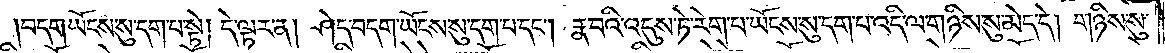བདག་ཡོངས་སུ་དག་པ་སྟེ། དེ་ལྟར་ན། ཤེད་བདག་ཡོངས་སུ་དག་པ་དང༌། རྣ་བའི་འདུས་ཏེ་རེག་པ་ཡོངས་སུ་དག་པ་འདི་ལ་གཉིས་སུ་མེད་དེ། གཉིས་སུ་
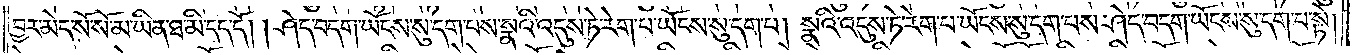བྱར་མེད་སོ་སོ་མ་ཡིན་ཐ་མི་དད་དོ། །ཤེད་བདག་ཡོངས་སུ་དག་པས་སྣའི་འདུས་ཏེ་རེག་པ་ཡོངས་སུ་དག་པ། སྣའི་འདུས་ཏེ་རེག་པ་ཡོངས་སུ་དག་པས་ཤེད་བདག་ཡོངས་སུ་དག་པ་སྟེ།
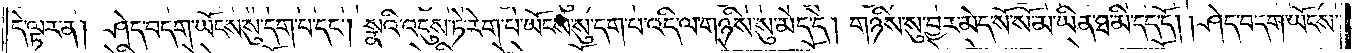དེ་ལྟར་ན། ཤེད་བདག་ཡོངས་སུ་དག་པ་དང༌། སྣའི་འདུས་ཏེ་རེག་པ་ཡོངས་སུ་དག་པ་འདི་ལ་གཉིས་སུ་མེད་དེ། གཉིས་སུ་བྱར་མེད་སོ་སོ་མ་ཡིན་ཐ་མི་དད་དོ། །ཤེད་བདག་ཡོངས་
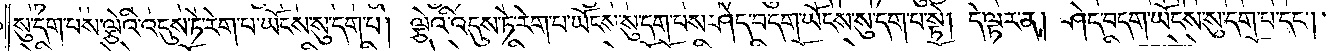སུ་དག་པས་ལྕེའི་འདུས་ཏེ་རེག་པ་ཡོངས་སུ་དག་པ། ལྕེའི་འདུས་ཏེ་རེག་པ་ཡོངས་སུ་དག་པས་ཤེད་བདག་ཡོངས་སུ་དག་པ་སྟེ། དེ་ལྟར་ན། ཤེད་བདག་ཡོངས་སུ་དག་པ་དང༌།
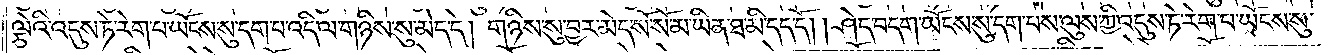ལྕེའི་འདུས་ཏེ་རེག་པ་ཡོངས་སུ་དག་པ་འདི་ལ་གཉིས་སུ་མེད་དེ། གཉིས་སུ་བྱར་མེད་སོ་སོ་མ་ཡིན་ཐ་མི་དད་དོ། །ཤེད་བདག་ཡོངས་སུ་དག་པས་ལུས་ཀྱི་འདུས་ཏེ་རེག་པ་ཡོངས་སུ་
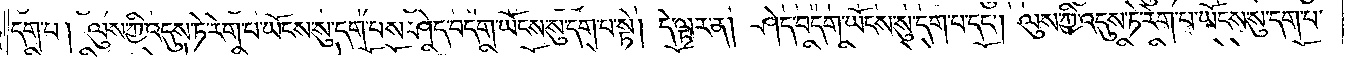དག་པ། ལུས་ཀྱི་འདུས་ཏེ་རེག་པ་ཡོངས་སུ་དག་པས་ཤེད་བདག་ཡོངས་སུ་དག་པ་སྟེ། དེ་ལྟར་ན། ཤེད་བདག་ཡོངས་སུ་དག་པ་དང༌། ལུས་ཀྱི་འདུས་ཏེ་རེག་པ་ཡོངས་སུ་དག་པ་
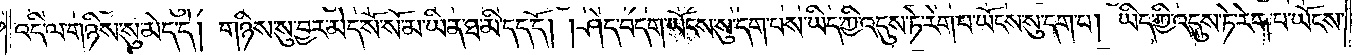འདི་ལ་གཉིས་སུ་མེད་དེ། གཉིས་སུ་བྱར་མེད་སོ་སོ་མ་ཡིན་ཐ་མི་དད་དོ། །ཤེད་བདག་ཡོངས་སུ་དག་པས་ཡིད་ཀྱི་འདུས་ཏེ་རེག་པ་ཡོངས་སུ་དག་པ། ཡིད་ཀྱི་འདུས་ཏེ་རེག་པ་ཡོངས་
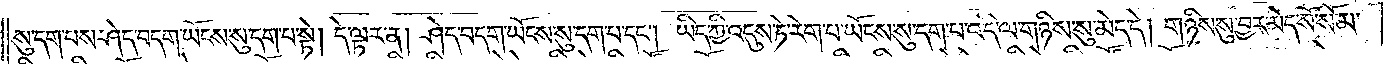སུ་དག་པས་ཤེད་བདག་ཡོངས་སུ་དག་པ་སྟེ། དེ་ལྟར་ན། ཤེད་བདག་ཡོངས་སུ་དག་པ་དང༌། ཡིད་ཀྱི་འདུས་ཏེ་རེག་པ་ཡོངས་སུ་དག་པ་འདི་ལ་གཉིས་སུ་མེད་དེ། གཉིས་སུ་བྱར་མེད་སོ་སོ་མ་
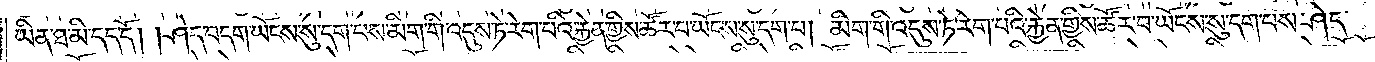ཡིན་ཐ་མི་དད་དོ། །ཤེད་བདག་ཡོངས་སུ་དག་པས་མིག་གི་འདུས་ཏེ་རེག་པའི་རྐྱེན་གྱིས་ཚོར་བ་ཡོངས་སུ་དག་པ། མིག་གི་འདུས་ཏེ་རེག་པའི་རྐྱེན་གྱིས་ཚོར་བ་ཡོངས་སུ་དག་པས་ཤེད་
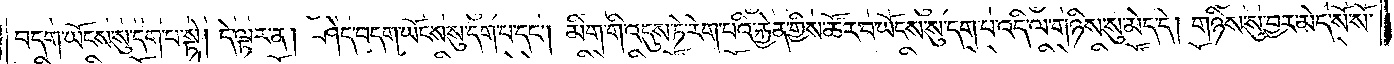བདག་ཡོངས་སུ་དག་པ་སྟེ། དེ་ལྟར་ན། ཤེད་བདག་ཡོངས་སུ་དག་པ་དང༌། མིག་གི་འདུས་ཏེ་རེག་པའི་རྐྱེན་གྱིས་ཚོར་བ་ཡོངས་སུ་དག་པ་འདི་ལ་གཉིས་སུ་མེད་དེ། གཉིས་སུ་བྱར་མེད་སོ་སོ་
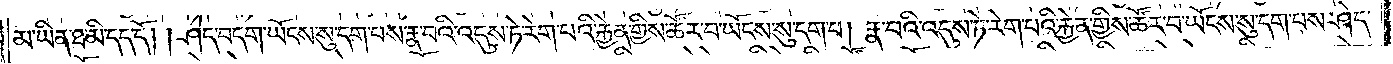མ་ཡིན་ཐ་མི་དད་དོ། །ཤེད་བདག་ཡོངས་སུ་དག་པས་རྣ་བའི་འདུས་ཏེ་རེག་པའི་རྐྱེན་གྱིས་ཚོར་བ་ཡོངས་སུ་དག་པ། རྣ་བའི་འདུས་ཏེ་རེག་པའི་རྐྱེན་གྱིས་ཚོར་བ་ཡོངས་སུ་དག་པས་ཤེད་
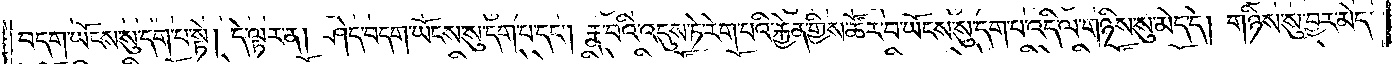བདག་ཡོངས་སུ་དག་པ་སྟེ། དེ་ལྟར་ན། ཤེད་བདག་ཡོངས་སུ་དག་པ་དང༌། རྣ་བའི་འདུས་ཏེ་རེག་པའི་རྐྱེན་གྱིས་ཚོར་བ་ཡོངས་སུ་དག་པ་འདི་ལ་གཉིས་སུ་མེད་དེ། གཉིས་སུ་བྱར་མེད་
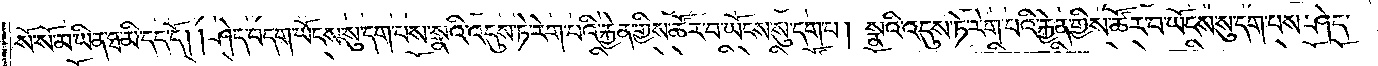སོ་སོ་མ་ཡིན་ཐ་མི་དད་དོ། །ཤེད་བདག་ཡོངས་སུ་དག་པས་སྣའི་འདུས་ཏེ་རེག་པའི་རྐྱེན་གྱིས་ཚོར་བ་ཡོངས་སུ་དག་པ། སྣའི་འདུས་ཏེ་རེག་པའི་རྐྱེན་གྱིས་ཚོར་བ་ཡོངས་སུ་དག་པས་ཤེད་
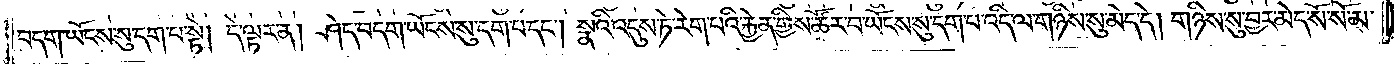བདག་ཡོངས་སུ་དག་པ་སྟེ། དེ་ལྟར་ན། ཤེད་བདག་ཡོངས་སུ་དག་པ་དང༌། སྣའི་འདུས་ཏེ་རེག་པའི་རྐྱེན་གྱིས་ཚོར་བ་ཡོངས་སུ་དག་པ་འདི་ལ་གཉིས་སུ་མེད་དེ། གཉིས་སུ་བྱར་མེད་སོ་སོ་མ་
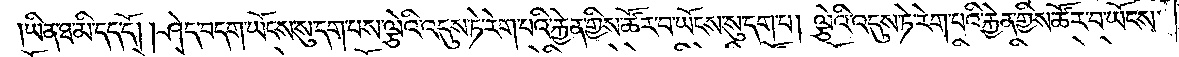ཡིན་ཐ་མི་དད་དོ། །ཤེད་བདག་ཡོངས་སུ་དག་པས་ལྕེའི་འདུས་ཏེ་རེག་པའི་རྐྱེན་གྱིས་ཚོར་བ་ཡོངས་སུ་དག་པ། ལྕེའི་འདུས་ཏེ་རེག་པའི་རྐྱེན་གྱིས་ཚོར་བ་ཡོངས་
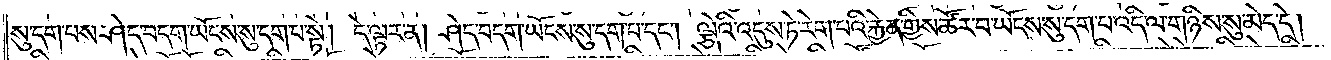སུ་དག་པས་ཤེད་བདག་ཡོངས་སུ་དག་པ་སྟེ། དེ་ལྟར་ན། ཤེད་བདག་ཡོངས་སུ་དག་པ་དང༌། ལྕེའི་འདུས་ཏེ་རེག་པའི་རྐྱེན་གྱིས་ཚོར་བ་ཡོངས་སུ་དག་པ་འདི་ལ་གཉིས་སུ་མེད་དེ།
